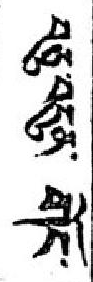བཅུ་བདུན་ གོང་
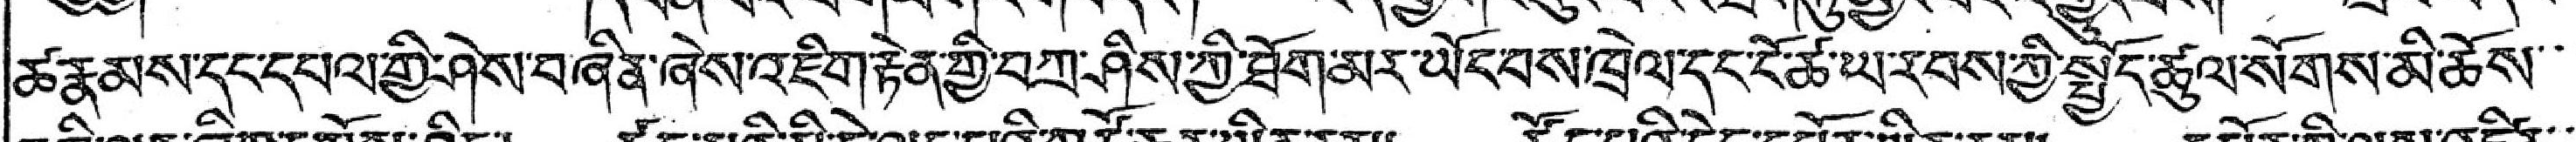ཚ་རྣམས་དང་དཔལ་གྱི་ཤེས་བཞིན་ཞེས་འཇིག་རྟེན་གྱི་བཀྲ་ཤིས་ཀྱི་ཐོག་མར་ཡོང་བས་ཁྲེལ་དང་ངོ་ཚ་ཡ་རབས་ཀྱི་སྤྱོད་ཚུལ་སོགས་མི་ཆོས་་་
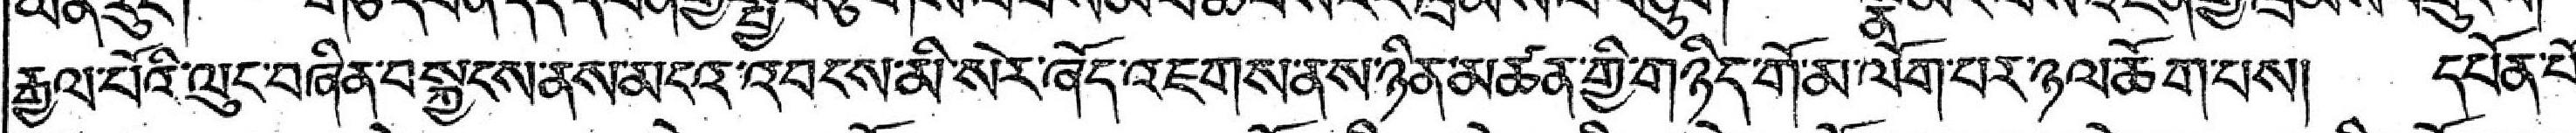རྒྱལ་པོའི་ལུང་བཞིན་བསྐྱངས་ནས་མངའ་འབངས་མི་སེར་ཞོད་འཇགས་ནས་ཉིན་མཚན་གྱི་གཉིད་གོ་མ་ལོག་པར་ཉལ་ཆོག་པས། དཔོན་པོ་
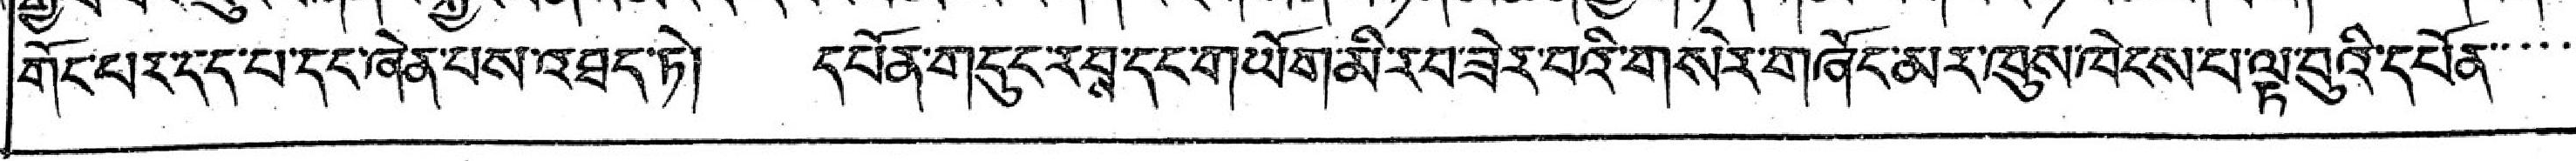གོང་པར་དད་པ་དང་ཞེན་པས་འཐད་ཏེ། དཔོན་གདུང་རབས་དང་གཡོག་མི་རབ་ཟེར་བའི་གསེར་གཞོང་མར་ཁུས་ཁེངས་པ་ལྟ་བུའི་དཔོན་་་་་
